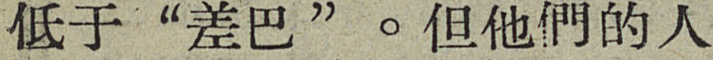低于“差巴”。但他們的人
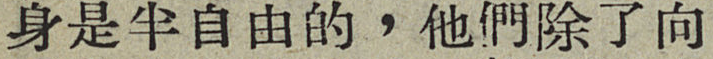身是半自由的，他們除了向
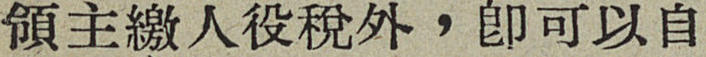領主繳人役稅外，卽可以自
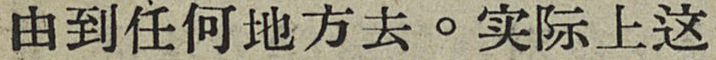由到任何地方去。实际上这
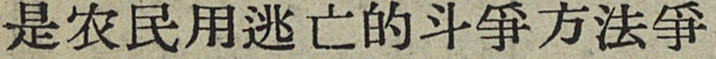是农民用逃亡的斗爭方法爭
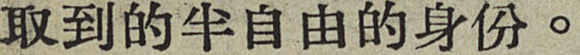取到的半自由的身份。
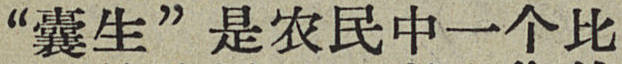“囊生”是农民中一个比
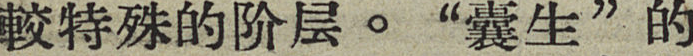較特殊的阶层。“囊生”的
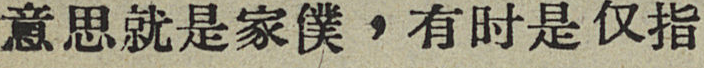意思就是家僕，有时是仅指
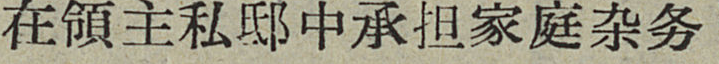在領主私邸中承担家庭杂务
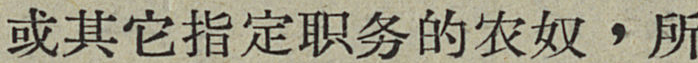或其他指定职务的农奴，所
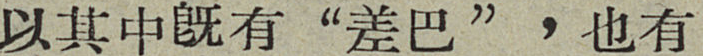以其中旣有“差巴”，也有
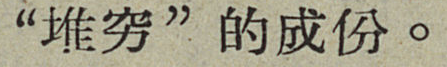“堆穷”的成份。
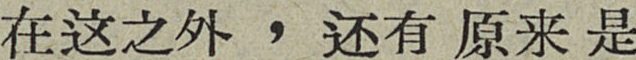在这之外，还有原来是
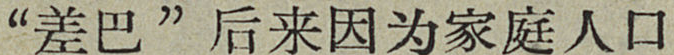“差巴”后来因为家庭人口
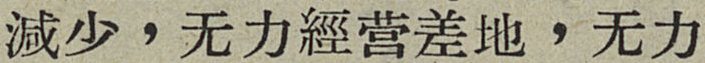減少，无力經营差地，无力
